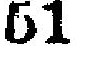51
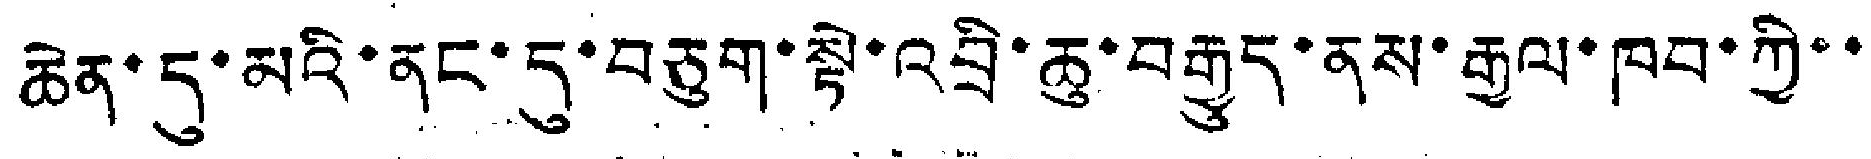ཆེན་དུ་མའི་ནང་དུ་བཅུག་སྟེ་འབྲི་ཆུ་བརྒྱུད་ནས་རྒྱལ་ཁབ་ཀྱི་་
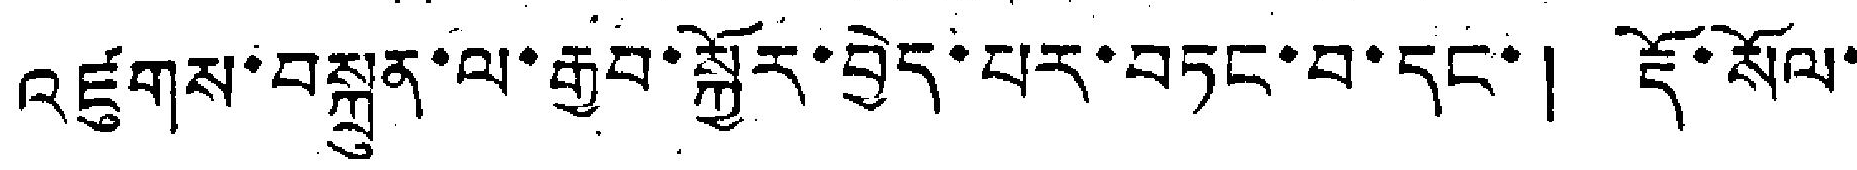འཛུགས་བསྐྲུན་ལ་རྒྱབ་སྐྱོར་བྱེད་པར་བཏང་བ་དང་། རྡོ་སོལ་
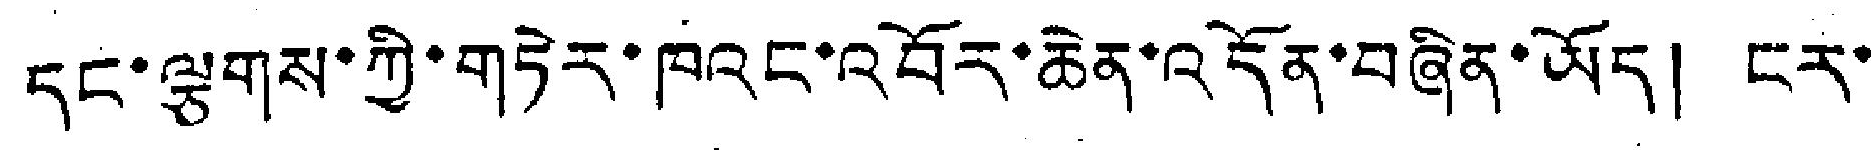དང་ལྕགས་ཀྱི་གཏེར་ཁའང་འབོར་ཆེན་འདོན་བཞིན་ཡོད། ངར་
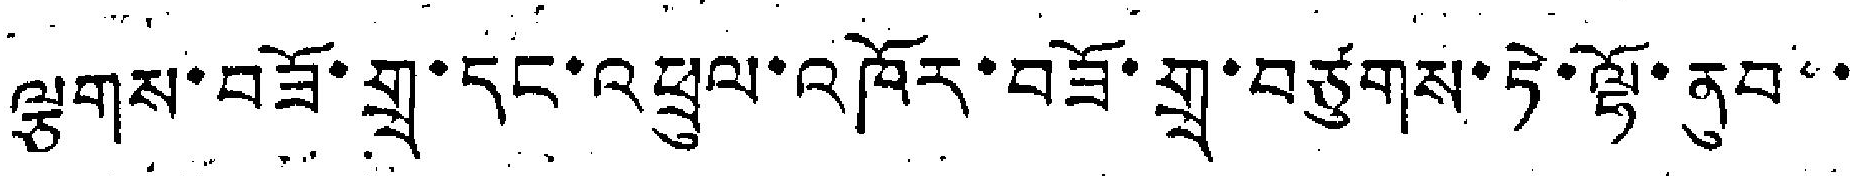ལྕགས་བཟོ་གྲྭ་དང་འཕྲུལ་འཁོར་བཟོ་གྲྭ་བཙུགས་ཏེ་ལྟོ་ནུབ་་་
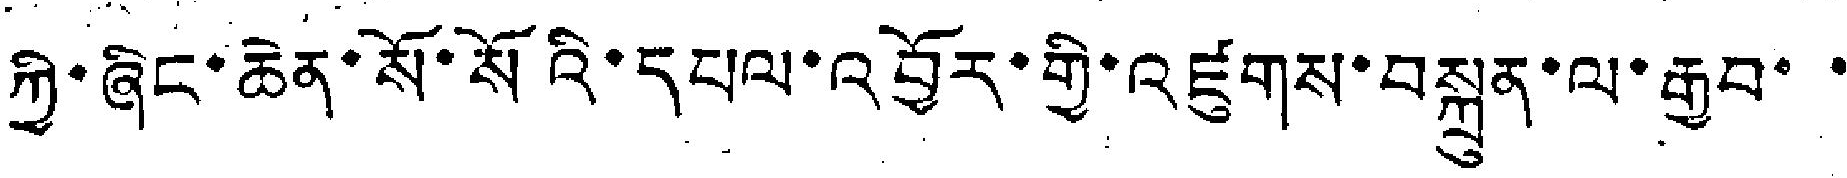ཀྱི་ཞིང་ཆེན་སོ་སོའི་དཔལ་འབྱོར་གྱི་འཛུགས་བསྐྲུན་ལ་རྒྱབ་་
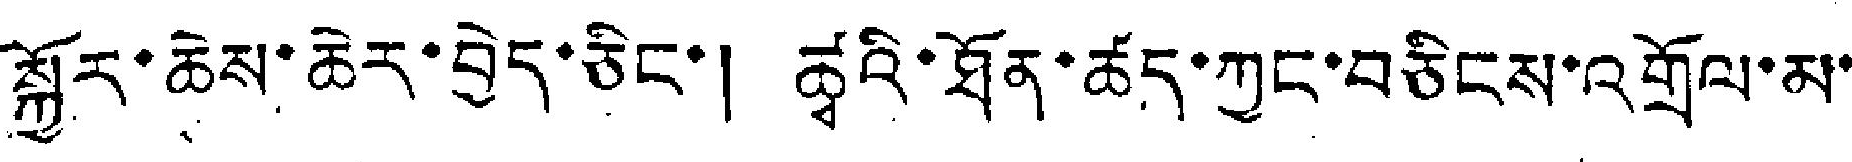སྐོར་ཆེས་ཆེར་བྱེད་ཅིང་། ཚྭའི་ཐོན་ཚད་ཀྱང་བཅིངས་འགྲོལ་མ་
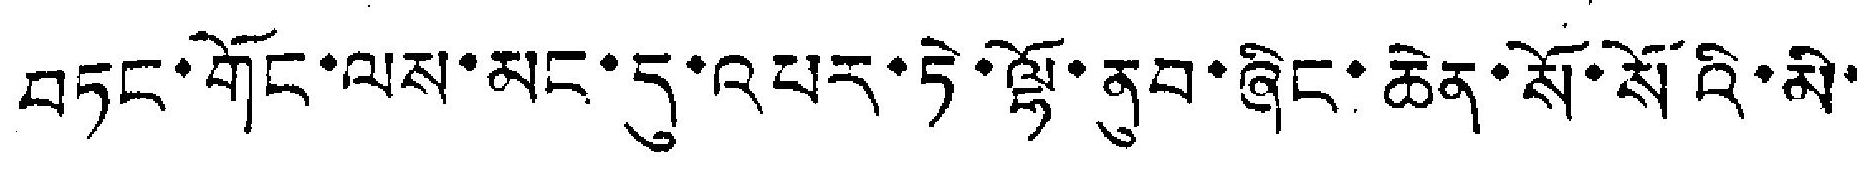བཏང་གོང་ལས་མང་དུ་འཔར་ཏེ་ལྷོ་ནུབ་ཞིང་ཆེན་སོ་སོའི་མི་
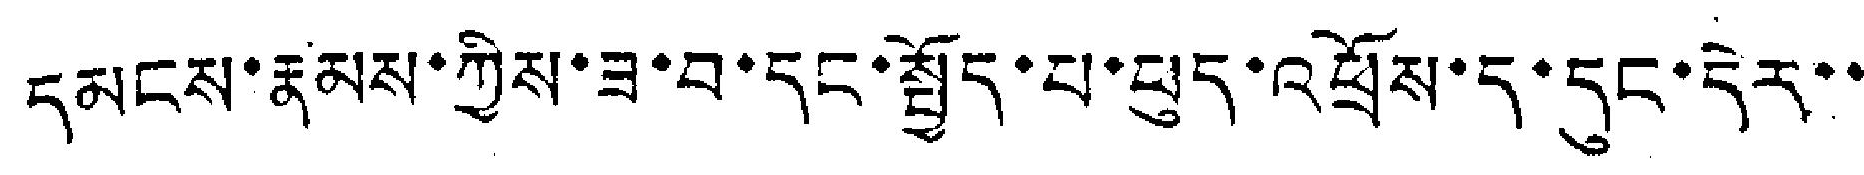དམངས་རྣམས་ཀྱིས་ཟ་བ་དང་སྤྱོད་པ་ཕུད་འཕྲོས་ད་དུང་དེར་་
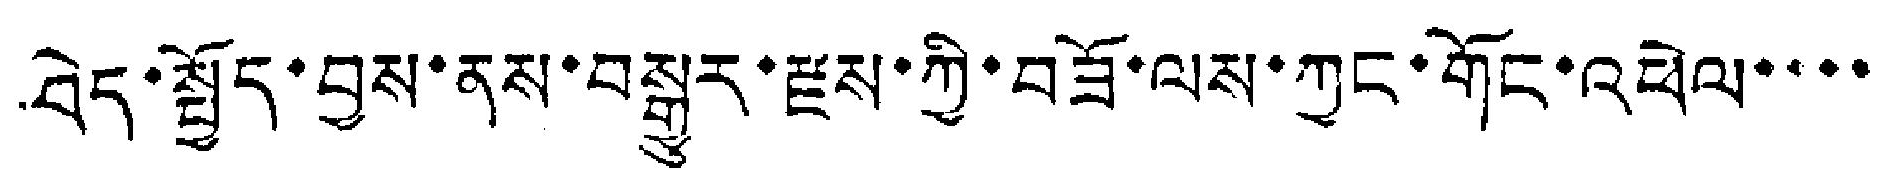བེད་སྤྱོད་བྱས་ནས་བསྒྱུར་རྫས་ཀྱི་བཟོ་ལས་ཀྱང་གོང་འཕེལ་་་་
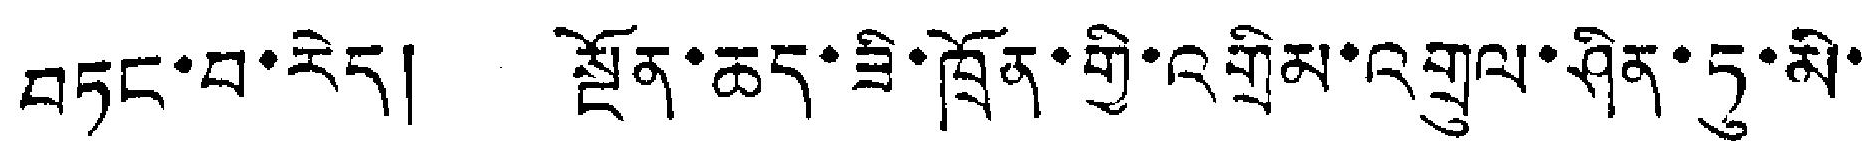བཏང་བ་རེད། སྔོན་ཆད་ཟི་ཁྲོན་གྱི་འགྲིམ་འགྲུལ་ཤིན་ཏུ་མི་
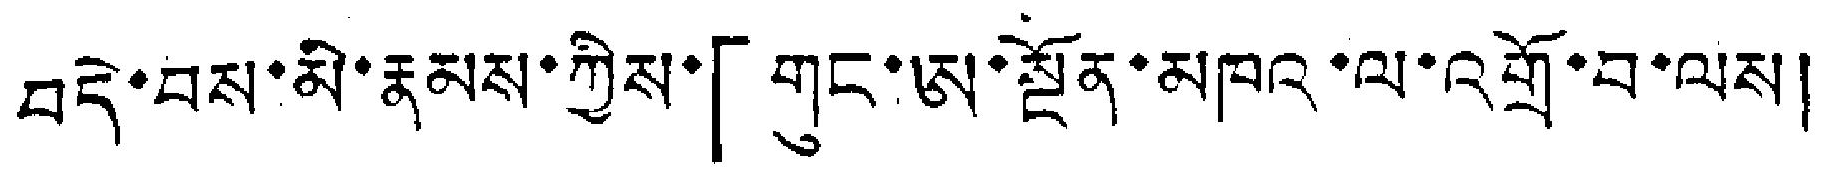བདེ་བས་མི་རྣམས་ཀྱིས་「གུང་ཨ་སྔོན་མཁའ་ལ་འགྲོ་བ་ལས།
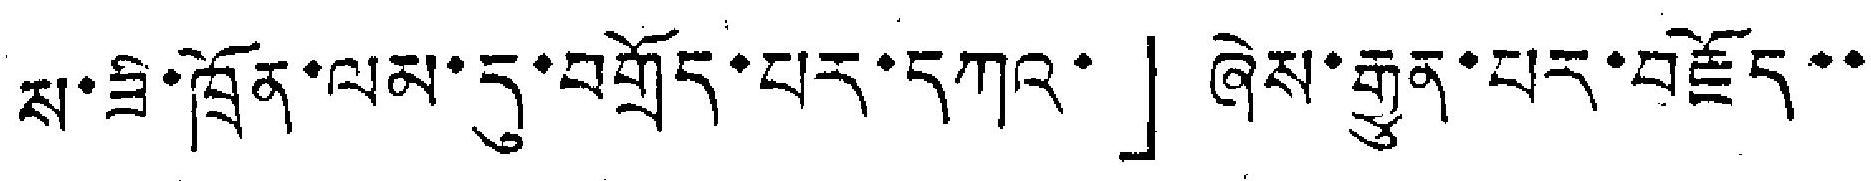ས་ཟི་ཁྲོན་ལམ་དུ་བགྲོད་པར་དཀའ་」ཞེས་རྒྱུན་པར་བརྗོད་་
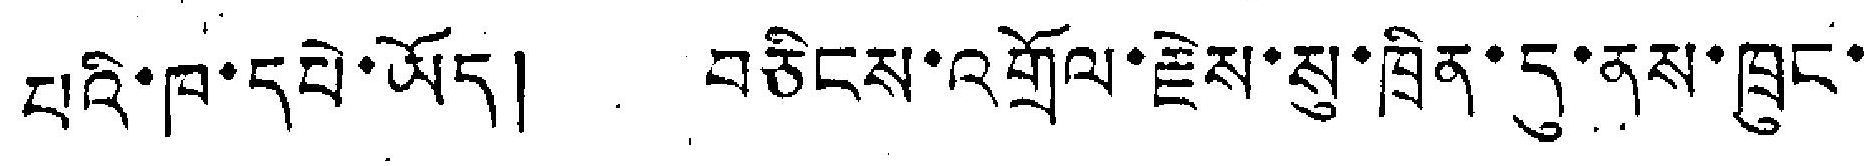པའི་ཁ་དཔེ་ཡོད། བཅིངས་འགྲོལ་རྗེས་སུ་ཁྲིན་དུ་ནས་ཁྲུང་
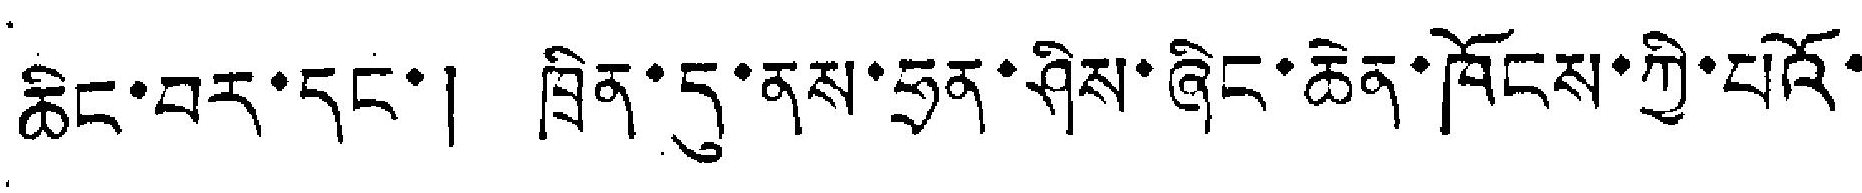ཆིང་བར་དང་། ཁྲིན་དུ་ནས་ཧྲན་ཤིས་ཞིང་ཆེན་ཁོངས་ཀྱི་པའོ་
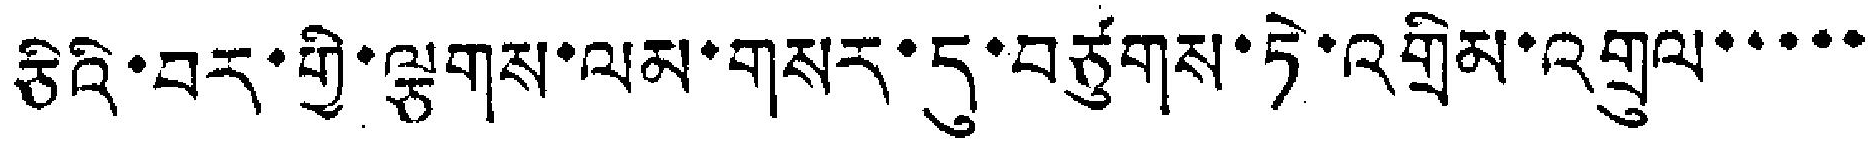ཅིའི་བར་གྱི་ལྕགས་ལམ་གསར་དུ་བཙུགས་ཏེ་འགྲིམ་འགྲུལ་་་་་
